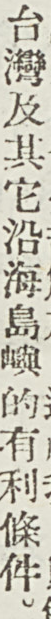台灣及其它沿海島嶼的有利條件。
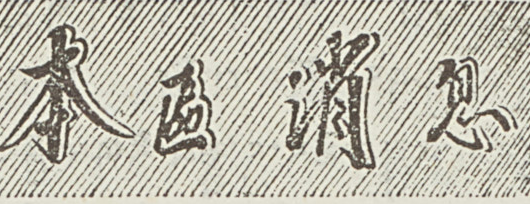本 區 消 息
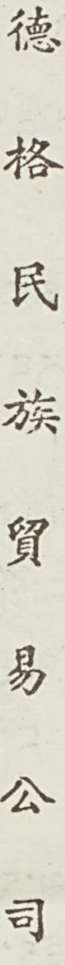德 格 民 族 貿 易 公 司
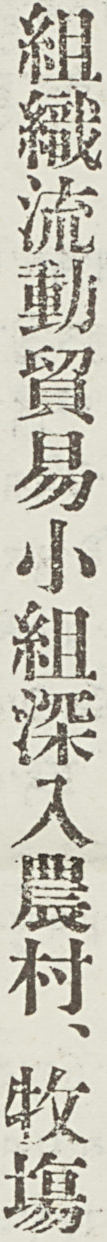組織流動貿易小組深入農村、牧場
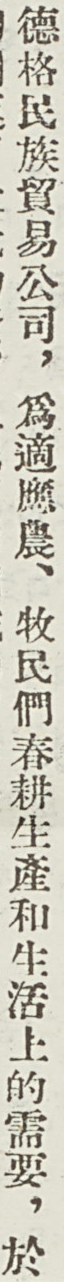德格民族貿易公司，爲適應農、牧民們春耕生產和生活上的需要，於
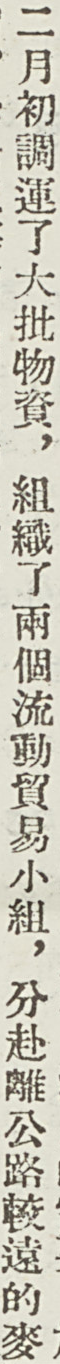二月初調運了大批物資，組織了兩個流動貿易小組，分赴離公路較遠的麥
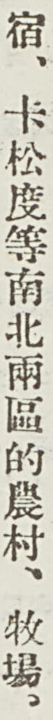宿、卡松度等南北兩區的農村、牧場。
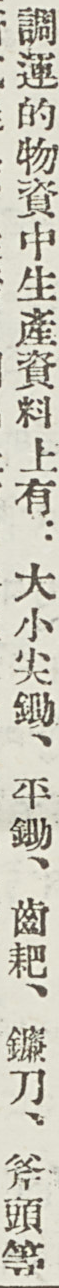調運的物資中生產資料上有：大小尖鋤、平鋤、齒耙、鐮刀、斧頭等
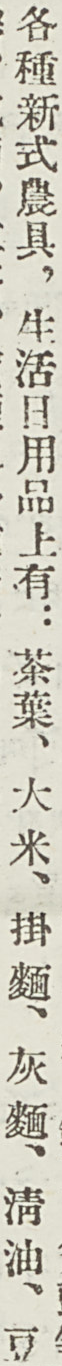各種新式農具，生活日用品上有：茶葉、大米、掛麵、灰麵、清油、豆
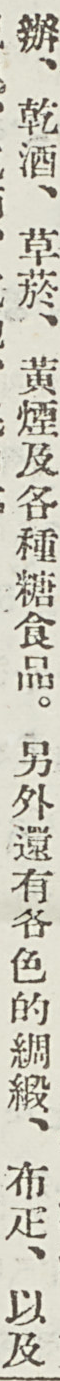辦、乾酒、草菸、黃煙及各種糖食品。另外還有各色的綢緞、布疋、以及
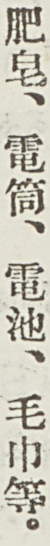肥皂、電筒、電池、毛巾等。
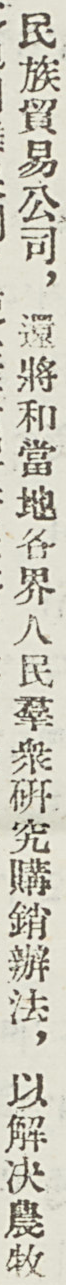民族貿易公司，還將和當地各界人民羣衆研究購銷辦法，以解決農牧
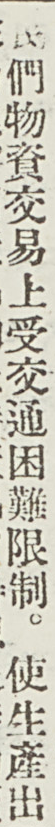民們物資交易上受交通困難限制。使生產出
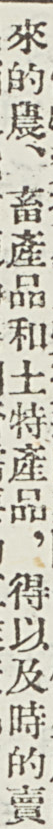來的農、畜產品和土特產品，得以及時的賣
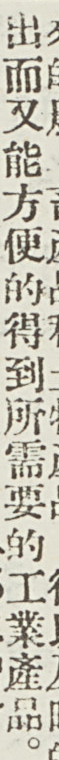出而又能方便的得到所需要的工業產品。
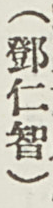（鄧仁智）
